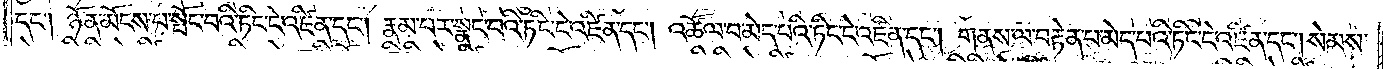དང༌། ཉོན་མོངས་པ་སྤོང་བའི་ཏིང་ངེ་འཛིན་དང༌། རྣམ་པར་སྣང་བའི་ཏིང་ངེ་འཛིན་དང༌། འཚོལ་བ་མེད་པའི་ཏིང་ངེ་འཛིན་དང༌། གནས་ལ་བརྟེན་པ་མེད་པའི་ཏིང་ངེ་འཛིན་དང༌། སེམས་
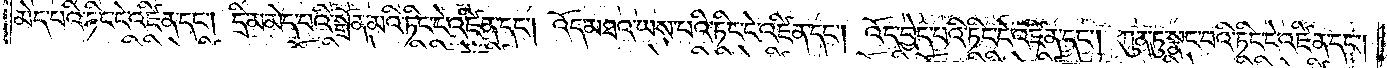མེད་པའི་ཏིང་ངེ་འཛིན་དང༌། དྲི་མ་མེད་པའི་སྒྲོན་མའི་ཏིང་ངེ་འཛིན་དང༌། འོད་མཐའ་ཡས་པའི་ཏིང་ངེ་འཛིན་དང༌། འོད་བྱེད་པའི་ཏིང་ངེ་འཛིན་དང༌། ཀུན་ཏུ་སྣང་བའི་ཏིང་ངེ་འཛིན་དང༌།
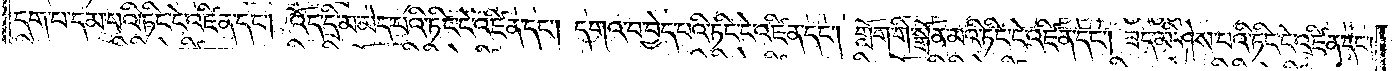དག་པ་དམ་པའི་ཏིང་ངེ་འཛིན་དང༌། འོད་དྲི་མ་མེད་པའི་ཏིང་ངེ་འཛིན་དང༌། དགའ་བ་བྱེད་པའི་ཏིང་ངེ་འཛིན་དང༌། གློག་གི་སྒྲོན་མའི་ཏིང་ངེ་འཛིན་དང༌། ཟད་མི་ཤེས་པའི་ཏིང་ངེ་འཛིན་དང༌།
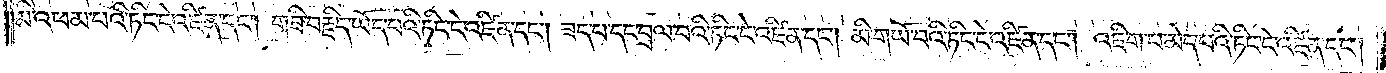མི་འཕམ་པའི་ཏིང་ངེ་འཛིན་དང༌། གཟི་བརྗིད་ཡོད་པའི་ཏིང་ངེ་འཛིན་དང༌། ཟད་པ་དང་བྲལ་བའི་ཏིང་ངེ་འཛིན་དང༌། མི་གཡོ་བའི་ཏིང་ངེ་འཛིན་དང༌། འཇིག་པ་མེད་པའི་ཏིང་ངེ་འཛིན་དང༌།
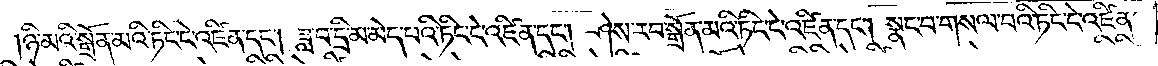ཉི་མའི་སྒྲོན་མའི་ཏིང་ངེ་འཛིན་དང༌། ཟླ་བ་དྲི་མ་མེད་པའི་ཏིང་ངེ་འཛིན་དང༌། ཤེས་རབ་སྒྲོན་མའི་ཏིང་ངེ་འཛིན་དང༌། སྣང་བ་གསལ་བའི་ཏིང་ངེ་འཛིན་
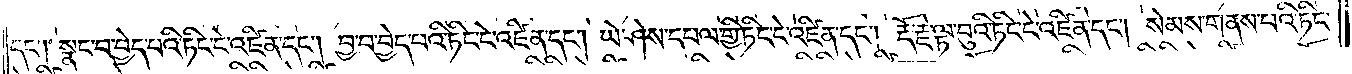དང༌། སྣང་བ་བྱེད་པའི་ཏིང་ངེ་འཛིན་དང༌། བྱ་བ་བྱེད་པའི་ཏིང་ངེ་འཛིན་དང༌། ཡེ་ཤེས་དཔལ་གྱི་ཏིང་ངེ་འཛིན་དང༌། རྡོ་རྗེ་ལྟ་བུའི་ཏིང་ངེ་འཛིན་དང༌། སེམས་གནས་པའི་ཏིང་
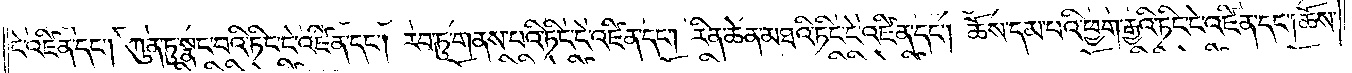ངེ་འཛིན་དང༌། ཀུན་ཏུ་སྣང་བའི་ཏིང་ངེ་འཛིན་དང༌། རབ་ཏུ་གནས་པའི་ཏིང་ངེ་འཛིན་དང༌། རིན་ཆེན་མཐའི་ཏིང་ངེ་འཛིན་དང༌། ཆོས་དམ་པའི་ཕྱག་རྒྱའི་ཏིང་ངེ་འཛིན་དང༌། ཆོས་
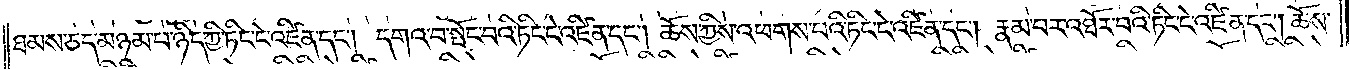ཐམས་ཅད་མཉམ་པ་ཉིད་ཀྱི་ཏིང་ངེ་འཛིན་དང༌། དགའ་བ་སྤོང་བའི་ཏིང་ངེ་འཛིན་དང༌། ཆོས་ཀྱིས་འཕགས་པའི་ཏིང་ངེ་འཛིན་དང༌། རྣམ་པར་འཐོར་བའི་ཏིང་ངེ་འཛིན་དང༌། ཆོས་
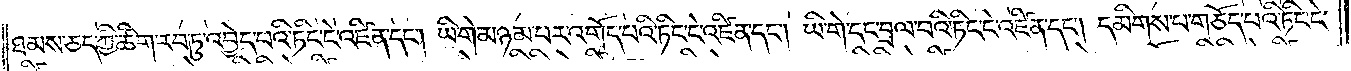ཐམས་ཅད་ཀྱི་ཚིག་རབ་ཏུ་འབྱེད་པའི་ཏིང་ངེ་འཛིན་དང༌། ཡི་གེ་མཉམ་པར་འགོད་པའི་ཏིང་ངེ་འཛིན་དང༌། ཡི་གེ་དང་བྲལ་བའི་ཏིང་ངེ་འཛིན་དང༌། དམིགས་པ་གཅོད་པའི་ཏིང་ངེ་
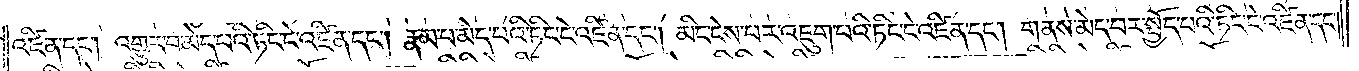འཛིན་དང༌། འགྱུར་བ་མེད་པའི་ཏིང་ངེ་འཛིན་དང༌། རྣམ་པ་མེད་པའི་ཏིང་ངེ་འཛིན་དང༌། མིང་ངེས་པར་འཇུག་པའི་ཏིང་ངེ་འཛིན་དང༌། གནས་མེད་པར་སྤྱོད་པའི་ཏིང་ངེ་འཛིན་དང༌།
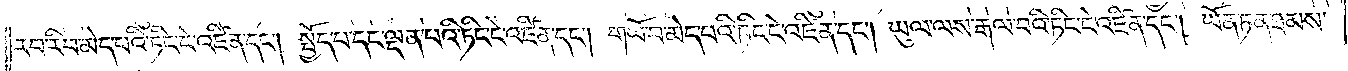རབ་རིབ་མེད་པའི་ཏིང་ངེ་འཛིན་དང༌། སྤྱོད་པ་དང་ལྡན་པའི་ཏིང་ངེ་འཛིན་དང༌། གཡོ་བ་མེད་པའི་ཏིང་ངེ་འཛིན་དང༌། ཡུལ་ལས་རྒལ་བའི་ཏིང་ངེ་འཛིན་དང༌། ཡོན་ཏན་ཐམས་
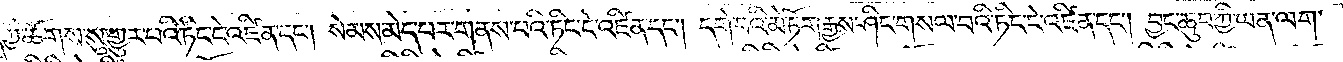ཅད་ཀྱི་ཚོགས་སུ་གྱུར་པའི་ཏིང་ངེ་འཛིན་དང༌། སེམས་མེད་པར་གནས་པའི་ཏིང་ངེ་འཛིན་དང༌། དགེ་བའི་མེ་ཏོག་རྒྱས་ཤིང་གསལ་བའི་ཏིང་ངེ་འཛིན་དང༌། བྱང་ཆུབ་ཀྱི་ཡན་ལག་
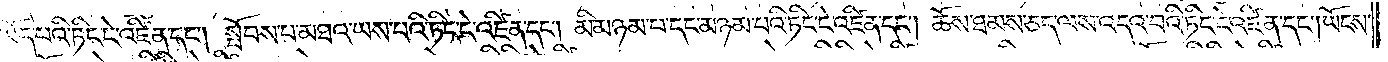ཡོད་པའི་ཏིང་ངེ་འཛིན་དང༌། སྤོབས་པ་མཐའ་ཡས་པའི་ཏིང་ངེ་འཛིན་དང༌། མི་མཉམ་པ་དང་མཉམ་པའི་ཏིང་ངེ་འཛིན་དང༌། ཆོས་ཐམས་ཅད་ལས་འདའ་བའི་ཏིང་ངེ་འཛིན་དང༌། ཡོངས་
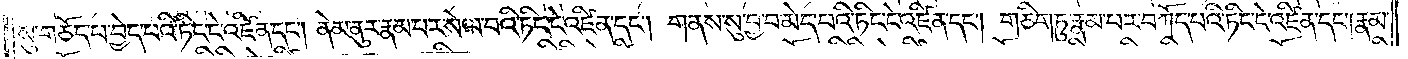སུ་གཅོད་པ་བྱེད་པའི་ཏིང་ངེ་འཛིན་དང༌། ནེམ་ནུར་རྣམ་པར་སེལ་བའི་ཏིང་ངེ་འཛིན་དང༌། གནས་སུ་བྱ་བ་མེད་པའི་ཏིང་ངེ་འཛིན་དང༌། གཅིག་ཏུ་རྣམ་པར་བཀོད་པའི་ཏིང་ངེ་འཛིན་དང༌། རྣམ་
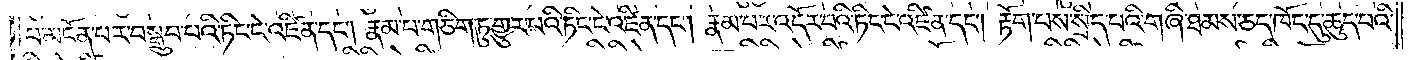པ་མངོན་པར་བསྒྲུབ་པའི་ཏིང་ངེ་འཛིན་དང༌། རྣམ་པ་གཅིག་ཏུ་གྱུར་པའི་ཏིང་ངེ་འཛིན་དང༌། རྣམ་པར་འདོར་བའི་ཏིང་ངེ་འཛིན་དང༌། རྟོག་པས་སྲིད་པའི་གཞི་ཐམས་ཅད་ཁོང་དུ་ཆུད་པའི་
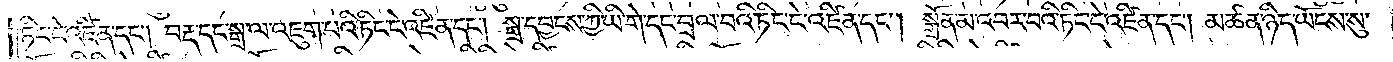ཏིང་ངེ་འཛིན་དང༌། བརྡ་དང་སྒྲ་ལ་འཇུག་པའི་ཏིང་ངེ་འཛིན་དང༌། སྒྲ་དབྱངས་ཀྱི་ཡི་གེ་དང་བྲལ་བའི་ཏིང་ངེ་འཛིན་དང༌། སྒྲོན་མ་འབར་པའི་ཏིང་ངེ་འཛིན་དང༌། མཚན་ཉིད་ཡོངས་སུ་
